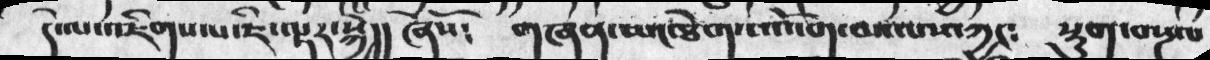དེ་ལ་འཇིགས་པ་ཇི་ལྟར་སྐྱེ།།  ཞེསོ༴  གཞན་ཡང་ཐེག་པ་འོག་མ་ལས་ཀྱང༴  སྡུག་བསྔལ་
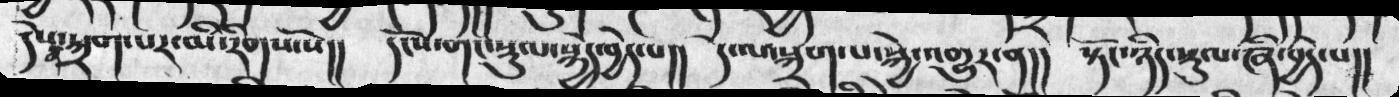དེས་ན་སྐྲག་པར་མི་རིགས་སོ།།    དངོས་གང་སྡུལ་སྐྱེད་བྱེད་པ།    དེ་ལ་སྐྲག་པ་སྐྱེ་འགྱུར་ན།།  སྟོང་ཉིད་སྟུལ་ཞི་བྱེད་པ།།
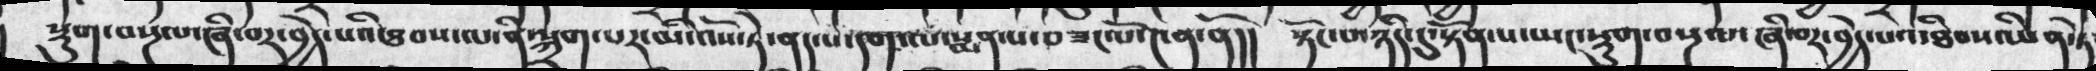སྡུག་བསྔལ་ཞི་བར་བྱེད་པའི་ཐབས་ལ་ནི་སྐྲག་པར་མི་འོས་ཏེ་ནད་པ་དག་ལ་སྨད་པ་བཟང་པོ་༤ན་ནོ།།  སྟོང་པ་ཉིད་དུ་སྟོན་པ་ཡང་སྡུག་བསྔལ་ཞི་བར་བྱེད་པའ་ཐིབས་ཡིན་ཏེ
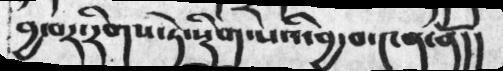བྱ་བར་རིགས་ཏེ་སྡིག་པའི་བྱ་བ་༤ན་ནོ།།
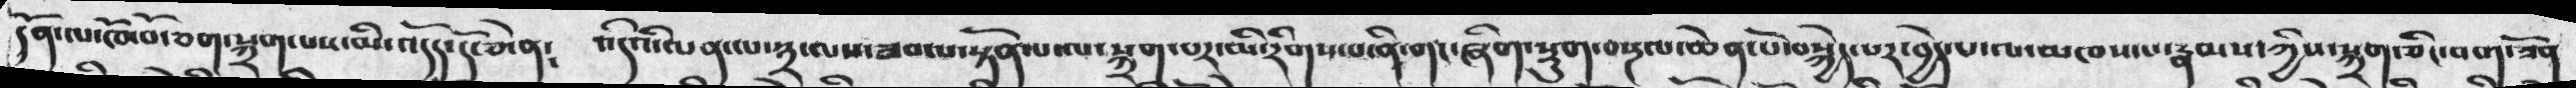དོན་ལ་ཁོ་བོ་ཅག་སྐྲག་པས་མི་འདོད་དོ་ཅེ་ན༴  འདིའི་ལན་ལ་༣་ལས་ཟབ་པསྟོན་པ་ལ་སྐྲག་པར་མི་རིགས་པ་ནི་གང་ཞིག་སྡུག་བསྔལ་ཆེན་པོ་བསྐྱེད་པར་བྱེད་པ་ལ་མཁས་པ་རྣམས་ཀྱིས་སྐྲག་ཅིང་བག་ཟོན
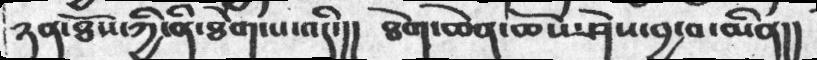ཉན་ཐོས་ཀྱི་ནི་ཐེག་པ་འདི་།།  ཐེག་ཆེན་ཆོས་ཤེས་བྱ་བ་མིན།།
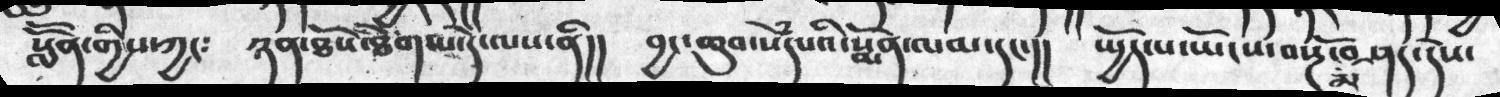སློོན་གྱིས་ཀྱང༴    ཉན་ཐོས་ཐེག་པ་དེ་ལས་ནི།།     བྱང་ཆུབ་སེཾདཔའི་སྨོན་ལམ་དང་།།   ཡྱོད་པ་ཡོངས་བསྔོ་མ་བཤད་དེས་
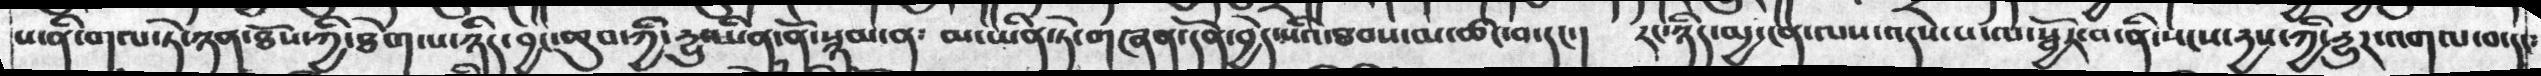ས་ནི་གལ་ཏེ་ཉན་ཐོས་ཐེག་པ་ཉིད་བྱང་ཆུབ་ཀྱི་རྱུ་ཡིན་ནོ་སྙམ་ན་  མ་ཡིན་ཏེ་གཞན་དོན་བྱེད་པའི་ཐབས་མ་ཚང་བ་དང་།།  རང་ཉིད་མྱ་ངན་ལས་འདས་པ་ལ་སྦྱོར་བ་སངས་དྱས་ཀྱི་རྱུར་འགལ་བ་དང་
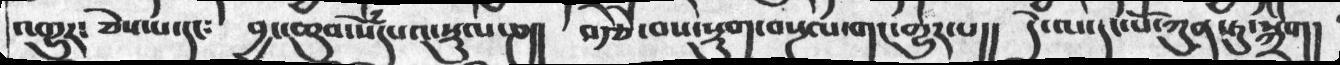འགྱུར༴  ཅེས་པ་དང༴  བྱང་ཆུབ་སེཾདཔའ་སྡུལ་ཎ།།  བརྩེ་བས་སྡུག་བསྔལ་གང་གྱུར་པ།།  དེ་ལ་དང་པོ་ཀུན་ཏུ་སྐྲག།
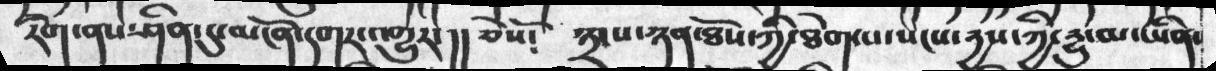རིག་ནད་ཤིན་དུ་མངོན་དགར་འགྱུར་།།  ཅེསོ༴  ༣་པ་ཉན་ཐོས་ཀྱི་ཐེག་པ་སངས་རྱས་ཀྱི་རྱུ་མ་ཡིན་
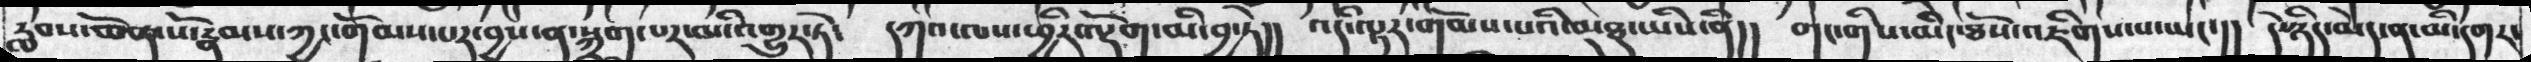རླབས་ཆེན་པོ་རྣམས་ཀྱང་གོམས་པར་བྱས་ན་སྐྲག་པར་མི་འགྱུར་ཏེ༴  དཀའ་ལས་ཕྱིར་ལྡོག་མི་བྱ་ཏེ།།  འདི་ལྟར་གོམས་པའི་མཐུ་ཡིས་ནི།།  གང་གིས་མིང་ཐོས་འཇིགས་པ་ཡང་།།  དེ་ཉིད་མེད་ན་མི་དགར་
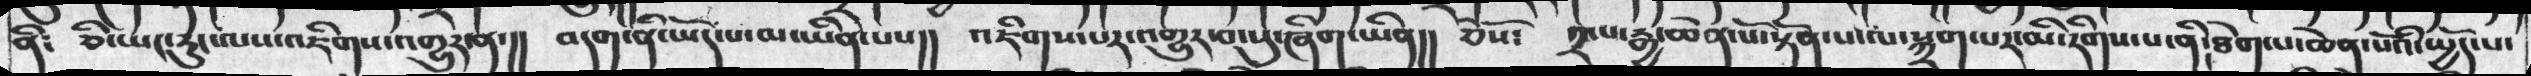ནི༴  ཅི་ཡང་རུང་ལས་འཇིགས་འགྱུར་ན་།།  བདག་ནི་ཡོད་པ་མ་ཡིན་པས།།  འཇིགས་པར་འགྱུར་བ་སུ་ཞིག་ཡིན།།  ཅེསོ༴  ༢་པ་རྒྱ་ཆེན་པོ་སྟོན་པ་ལ་སྐྲག་པར་མི་རིགས་པ་ནི་ཐེག་པ་ཆེན་པོའི་སྤྱོད་པ་
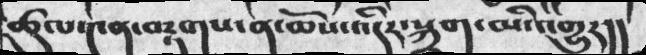ཚུལ་༤ན་བརྟགས་ན་ཆོས་འདིར་སྐྲག་མི་འགྱུར།།
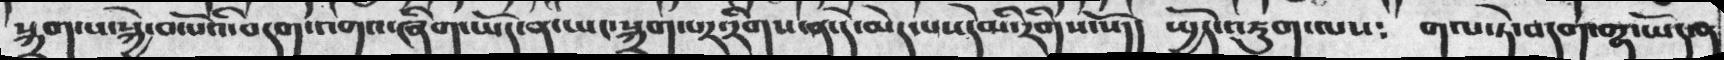སྐྲག་པ་སྐྱེ་བ་པོའི་བདག་འགའ་ཞིག་ཡོད་ན་ཡང་སྐྲག་པར་རིགས་ན་དེ་མེད་པས་དེམི་རིགས་སོ།།  སྤྱོད་འཇུག་ལས༴ གལ་ཏེ་བདག་གྷ་ཡོད་ན
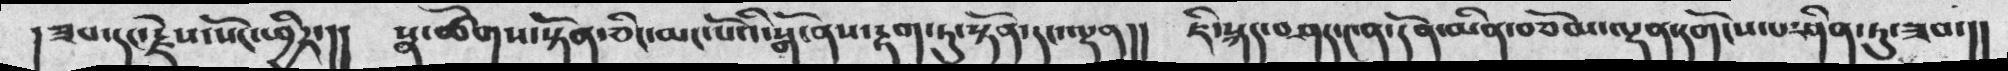། ཟབ་དང་རྗེས་སོང་ཕྱིར་།།  སྣ་ཚོགས་སྟོན་ཅིང་མང་པོའི་སྒོ་ནས་རྟག་ཏུ་སྟོན་དང་ལྡན།།  ཇི་སྐད་བཤད་༤ན་དོན་མིན་བཅོམ་ལྡན་དགོངས་པ་ཤིན་ཏུ་ཟབ་།།
